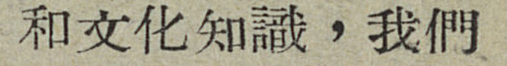和文化知識，我們
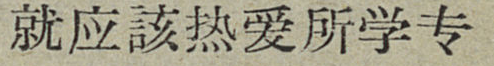就应該热爱所学专
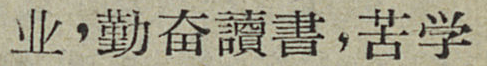业，勤奋讀書，苦学
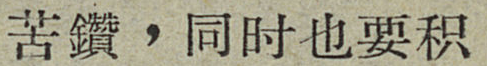苦鑽，同时也要积
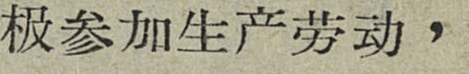极参加生产劳动，
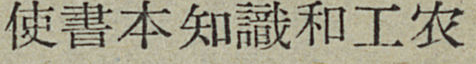使書本知識和工农
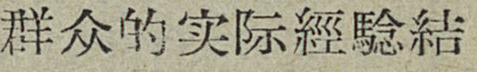群众的实际經騐結
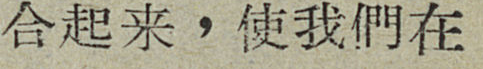合起来，使我們在
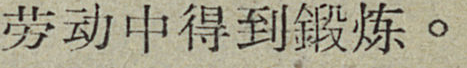劳动中得到鍛炼。
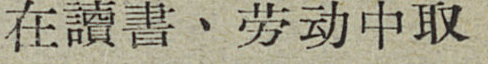在讀書、劳动中取
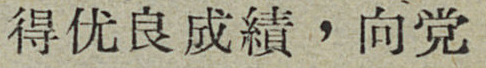得优良成績，向党
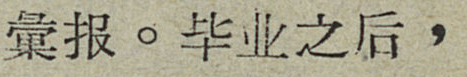彙报。毕业之后，
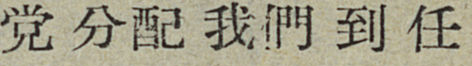党分配我們到任
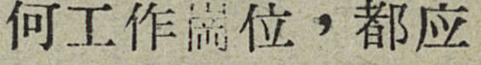何工作崗位，都应
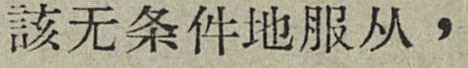該无条件地服从，
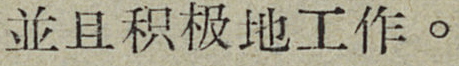並且积极地工作。
